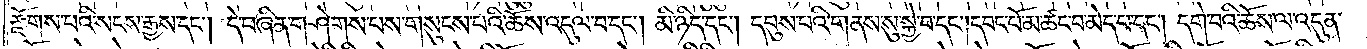རྫོགས་པའི་སངས་རྒྱས་དང༌། དེ་བཞིན་གཤེགས་པས་གསུངས་པའི་ཆོས་འདུལ་བ་དང༌། མི་ཉིད་དང༌། དབུས་པའི་གནས་སུ་སྐྱེ་བ་དང༌། དབང་པོ་མ་ཚང་བ་མེད་པ་དང༌། དགེ་བའི་ཆོས་ལ་འདུན་
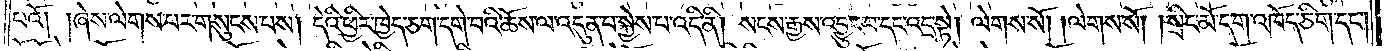པའོ། །ཞེས་ལེགས་པར་གསུངས་པས། དེའི་ཕྱིར་ཁྱེད་ཅག་དགེ་བའི་ཆོས་ལ་འདུན་པ་སྐྱེས་པ་འདི་ནི། སངས་རྒྱས་འབྱུང་བ་དང་འདྲ་སྟེ། ལེགས་སོ། །ལེགས་སོ། །སྲིང་མོ་དག་འཁོད་ཅིག་དང༌།
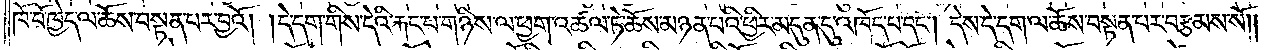ཁོ་བོ་ཁྱེད་ལ་ཆོས་བསྟན་པར་བྱའོ། །དེ་དག་གིས་དེའི་རྐང་པ་གཉིས་ལ་ཕྱག་འཚལ་ཏེ་ཆོས་མཉན་པའི་ཕྱིར་མདུན་དུ་འཁོད་པ་དང༌། དེས་དེ་དག་ལ་ཆོས་བསྟན་པར་བརྩམས་སོ༎
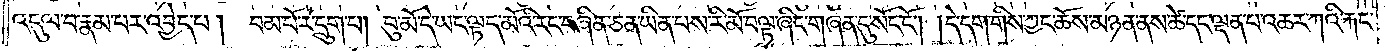འདུལ་བ་རྣམ་པར་འབྱེད་པ། བམ་པོ་རེ་དྲུག་པ། བུ་མོ་དེ་ཡང་ལྟད་མོའི་རང་བཞིན་ཅན་ཡིན་པས་རི་མོ་བལྟ་ཞིང་གཞན་དུ་སོང་ངོ༌། །དེ་དག་གིས་ཀྱང་ཆོས་མཉན་ནས་ཚེ་དང་ལྡན་པ་འཆར་ཀའི་རྐང་
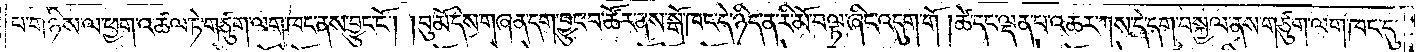པ་གཉིས་ལ་ཕྱག་འཚལ་ཏེ་གཙུག་ལག་ཁང་ནས་བྱུང་ངོ༌། །བུ་མོ་དེས་གཞན་དག་བྱུང་བ་ཚོར་ནས་སྒོ་ཁང་དེ་ཉིད་ན་རི་མོ་བལྟ་ཞིང་འདུག་གོ །ཚེ་དང་ལྡན་པ་འཆར་ཀས་དེ་དག་བསྐྱལ་ནས་གཙུག་ལག་ཁང་དུ་
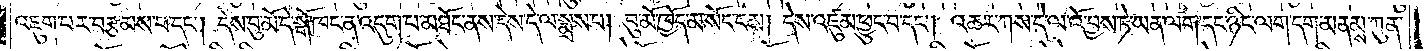འཇུག་པར་བརྩམས་པ་དང༌། དེས་བུ་མོ་དེ་སྒོ་ཁང་ན་འདུག་པ་མཐོང་ནས་དེས་དེ་ལ་སྨྲས་པ། བུ་མོ་ཁྱོད་མ་སོང་ངམ། དེས་འཛུམ་ཕྱུང་བ་དང༌། འཆར་ཀས་དེ་ལ་འོ་བྱས་ཏེ་ཡན་ལག་དང་ཉིང་ལག་དག་མནམས་ཀུན་
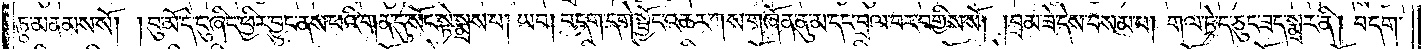ཏུ་མནམས་སོ། །བུ་མོ་དེ་ངུ་ཞིང་ཕྱིར་བྱུང་ནས་ཕའི་གན་དུ་སོང་སྟེ་སྨྲས་པ། ཡབ། བདག་དགེ་སྦྱོང་འཆར་ཀས་གཞོན་ནུ་མ་དང་བྲལ་བར་བགྱིས་སོ། །བྲམ་ཟེ་དེས་བསམ་པ། གལ་ཏེ་ད་ཅུང་ཟད་སྨྲར་ནི། བདག་
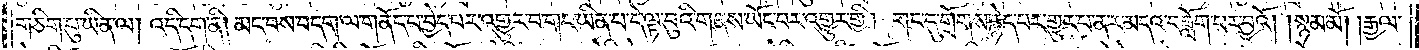གཅིག་པུ་ཡིན་ལ། འདི་དག་ནི། མང་བས་བདག་ལ་གནོད་པ་བྱེད་པར་འགྱུར་བ་གང་ཡིན་པ་དེ་ལྟ་བུའི་གནས་ཡོང་བར་འགྱུར་གྱི། གང་དུ་གྲོགས་རྙེད་པར་གྱུར་པ་ན་ར་མདའ་བཟློག་པར་བྱའོ། །སྙམ་མོ། །རྒྱལ་
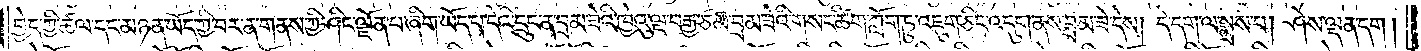བྱེད་ཀྱི་ཚལ་དང་མཉན་ཡོད་ཀྱི་བར་ན་གནས་ཀྱི་ཤིང་ལྗོན་པ་ཞིག་ཡོད་པ་དེའི་དྲུང་ན་བྲམ་ཟེའི་ཁྱེའུ་ལྔ་བརྒྱ་ཙམ་བྲམ་ཟེའི་གསང་ཚིག་ཀློག་ཏུ་འཇུག་ཅིང་འདུག་ནས་བྲམ་ཟེ་དེས། དེ་དག་ལ་སྨྲས་པ། ཤེས་ལྡན་དག །
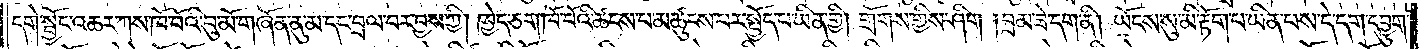དགེ་སྦྱོང་འཆར་ཀས་ཁོ་བོའི་བུ་མོ་གཞོན་ནུ་མ་དང་བྲལ་བར་བྱས་ཀྱི། ཁྱེད་ཅག་ཁོ་བོའི་ཚངས་པ་མཚུངས་པར་སྤྱོད་པ་ཡིན་གྱི། གྲོགས་གྱིས་ཤིག །བྲམ་ཟེ་དག་ནི། ཡོངས་སུ་མི་རྟོག་པ་ཡིན་པས་དེ་དག་དབྱུག་
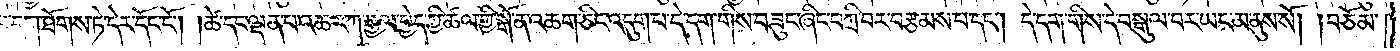པ་དག་ཐོགས་ཏེ་དེར་དོང་ངོ༌། །ཚེ་དང་ལྡན་པ་འཆར་ཀ་རྒྱལ་བྱེད་ཀྱི་ཚལ་གྱི་སྒོ་ན་འཆག་ཅིང་འདུག་པ་དེ་དག་གིས་བཟུང་ཞིང་བཀྲི་བར་བརྩམས་པ་དང༌། དེ་དག་གིས་དེ་བསྒུལ་བར་ཡང་མ་ནུས་སོ། །བཅོམ་
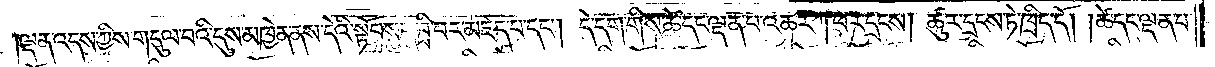ལྡན་འདས་ཀྱིས་གདུལ་བའི་དུས་མཁྱེན་ནས་དེའི་སྟོབས་དབྲི་བར་མཛད་པ་དང༌། དེ་དག་གིས་ཚེ་དང་ལྡན་པ་འཆར་ཀ་ཕར་དྲངས། ཚུར་དྲངས་ཏེ་ཁྲིད་དོ། །ཚེ་དང་ལྡན་པ་
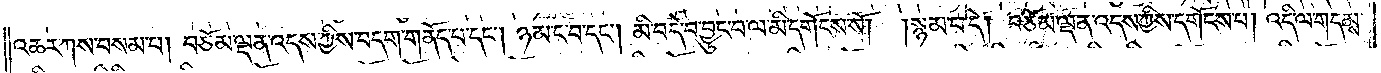འཆར་ཀས་བསམ་པ། བཅོམ་ལྡན་འདས་ཀྱིས་བདག་གནོད་པ་དང༌། ཉམ་ང་བ་དང༌། མི་བདེ་བ་བྱུང་བ་ལ་མི་དགོངས་སོ། །སྙམ་པ་དེ། བཅོམ་ལྡན་འདས་ཀྱིས་དགོངས་པ། འདི་ལ་གདམས་
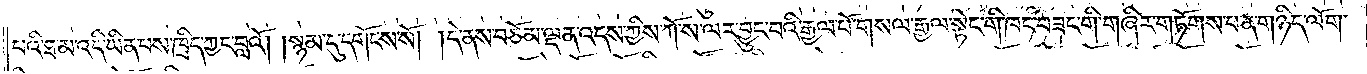པའི་ཐ་མ་འདི་ཡིན་པས་ཁྲིད་ཀྱང་བླའོ། །སྙམ་དུ་དགོངས་སོ། །དེ་ནས་བཅོམ་ལྡན་འདས་ཀྱིས་ཀོ་ས་ལར་བྱུང་བའི་རྒྱལ་པོ་གསལ་རྒྱལ་སྟེང་གི་ཁང་བཟང་གི་གཞིར་གཏོགས་པ་ན་གཉིད་ལོག་
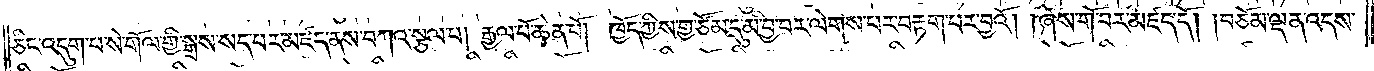ཅིང་འདུག་པ་སེ་གོལ་གྱི་སྒྲས་སད་པར་མཛད་ནས་བཀའ་སྩལ་པ། རྒྱལ་པོ་ཆེན་པོ། ཁྱོད་ཀྱིས་གྱ་ཙོམ་དུ་མི་བྱ་བར་ལེགས་པར་བརྟག་པར་བྱའོ། །ཞེས་གོ་བར་མཛད་དོ། །བཅོམ་ལྡན་འདས་
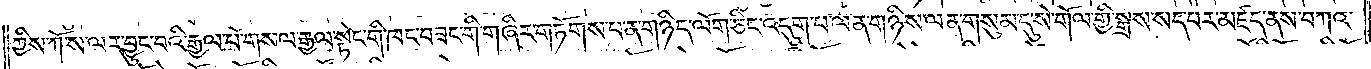ཀྱིས་ཀོ་ས་ལར་བྱུང་བའི་རྒྱལ་པོ་གསལ་རྒྱལ་སྟེང་གི་ཁང་བཟང་གི་གཞིར་གཏོགས་པ་ན་གཉིད་ལོག་ཅིང་འདུག་པ་ལན་གཉིས་ལན་གསུམ་དུ་སེ་གོལ་གྱི་སྒྲས་སད་པར་མཛད་ནས་བཀའ་
